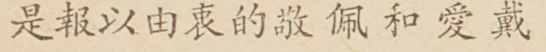是報以由衷的敬佩和愛戴
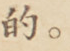的。
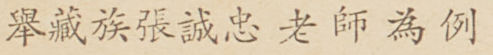舉藏族張誠忠老師為例
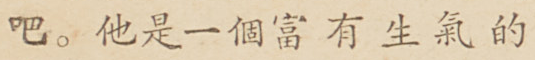吧。他是一個富有生氣的
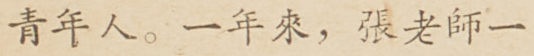青年人。一年來，張老師一
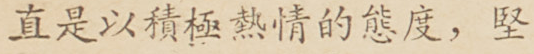直是以積極熱情的態度，堅
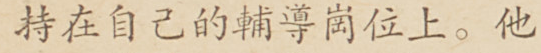持在自己的輔導崗位上。他
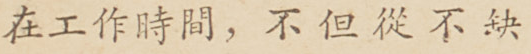在工作時間，不但從不缺
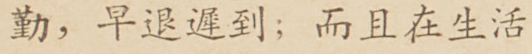勤，早退遲到；而且在生活
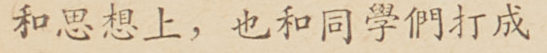和思想上，也和同學們打成
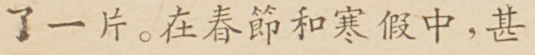了一片。在春節和寒假中，甚
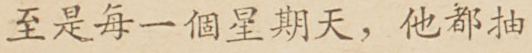至是每一個星期天，他都抽
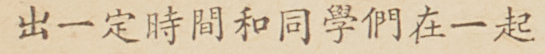出一定時間和同學們在一起
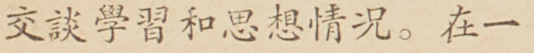交談學習和思想情況。在一
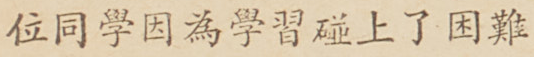位同學因為學習碰上了困難
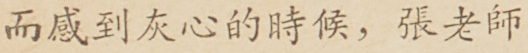而感到灰心的時候，張老師
